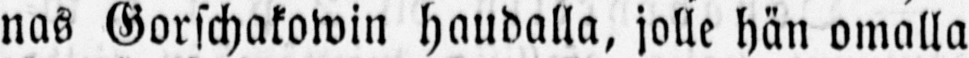nas Gorschakowin haudalla, jolle hän omalla
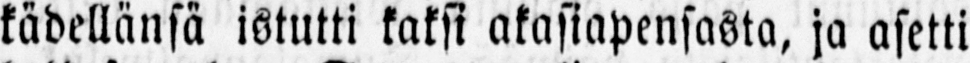kädellänsä istutti kaksi akasiapensasta, ja asetti
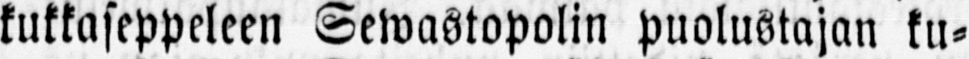kukkaseppeleen Sewastopolin puolustajan ku-
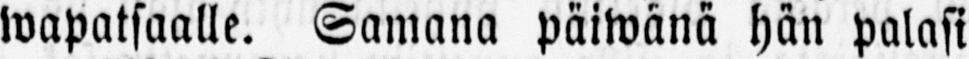wapatsaalle. Samana päiwänä hän palasi
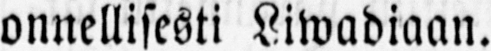onnellisesti Liwadiaan.
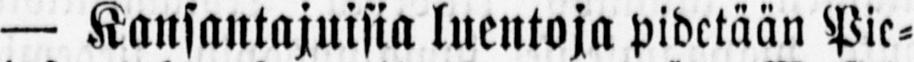— Kansantajuisia luentoja pidetään Pie-
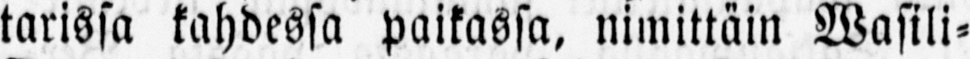tarissa kahdessa paikassa, nimittäin Wasili-
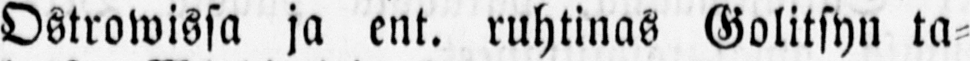Ostrowissa ja ent. ruhtinas Golitsyn ta-
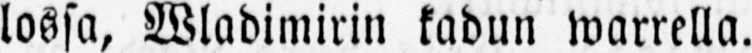lossa, Wladimirin kadun warrella.
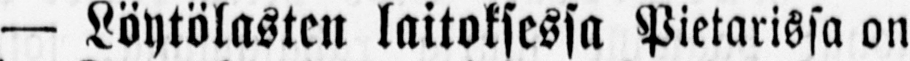— Löytölasten laitoksessa Pietarissa on
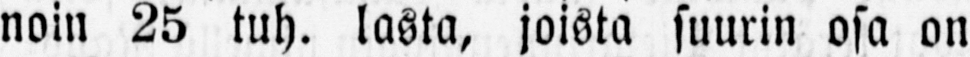noin 25 tuh. lasta, joista suurin osa on
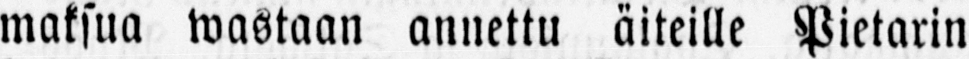maksua wastaan annettu äiteille Pietarin
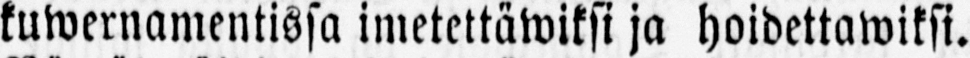kuwernamentissa imetettäwiksi ja hoidettawiksi.
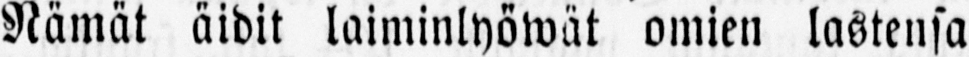Nämät äidit laiminlyöwät omien lastensa
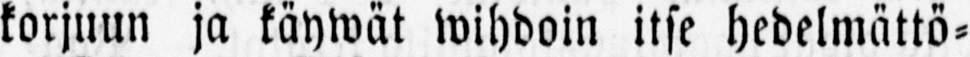korjuun ja käywät wihdoin itse hedelmättö-
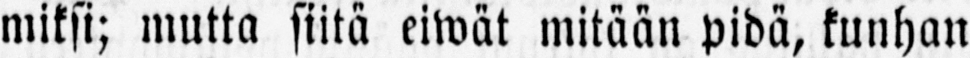miksi; mutta siitä eiwät mitään pidä, kunhan
